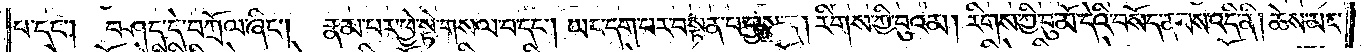པ་དང༌། བཤད་དེ་བཀྲོལ་ཞིང༌། རྣམ་པར་ཕྱེ་སྟེ་གསལ་བ་དང༌། ཡང་དག་པར་བསྟན་པ་བྱས་ན། རིགས་ཀྱི་བུའམ། རིགས་ཀྱི་བུ་མོ་དེའི་བསོད་ནམས་འདི་ནི། ཆེས་མང་
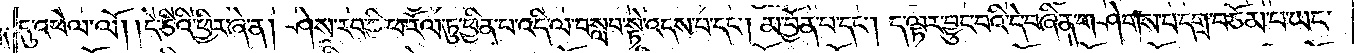དུ་འཕེལ་ལོ། །དེ་ཅིའི་ཕྱིར་ཞེ་ན། ཤེས་རབ་ཀྱི་ཕ་རོལ་ཏུ་ཕྱིན་པ་འདི་ལ་བསླབ་སྟེ་འདས་པ་དང༌། མ་བྱོན་པ་དང༌། ད་ལྟར་བྱུང་བའི་དེ་བཞིན་གཤེགས་པ་དགྲ་བཅོམ་པ་ཡང་
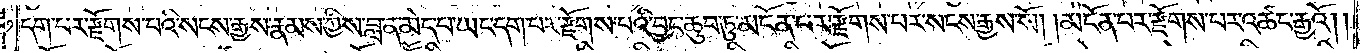དག་པར་རྫོགས་པའི་སངས་རྒྱས་རྣམས་ཀྱིས་བླ་ན་མེད་པ་ཡང་དག་པར་རྫོགས་པའི་བྱང་ཆུབ་ཏུ་མངོན་པར་རྫོགས་པར་སངས་རྒྱས་སོ། །མངོན་པར་རྫོགས་པར་འཚང་རྒྱའོ། །
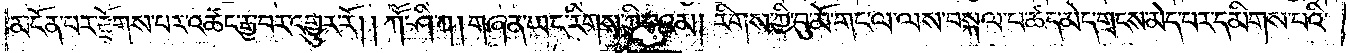མངོན་པར་རྫོགས་པར་འཚང་རྒྱ་བར་འགྱུར་རོ། །ཀཽ་ཤི་ཀ། གཞན་ཡང་རིགས་ཀྱི་བུའམ། རིགས་ཀྱི་བུ་མོ་ལ་ལས་བསྐལ་པ་ཚད་མེད་གྲངས་མེད་པར་དམིགས་པའི་
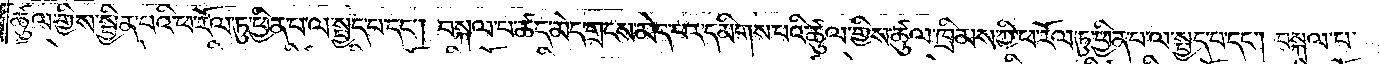ཚུལ་གྱིས་སྦྱིན་པའི་ཕ་རོལ་ཏུ་ཕྱིན་པ་ལ་སྤྱད་པ་དང༌། བསྐལ་པ་ཚད་མེད་གྲངས་མེད་པར་དམིགས་པའི་ཚུལ་གྱིས་ཚུལ་ཁྲིམས་ཀྱི་ཕ་རོལ་ཏུ་ཕྱིན་པ་ལ་སྤྱད་པ་དང༌། བསྐལ་པ་
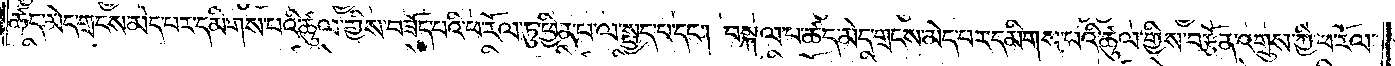ཚད་མེད་གྲངས་མེད་པར་དམིགས་པའི་ཚུལ་གྱིས་བཟོད་པའི་ཕ་རོལ་ཏུ་ཕྱིན་པ་ལ་སྤྱད་པ་དང༌། བསྐལ་པ་ཚད་མེད་གྲངས་མེད་པར་དམིགས་པའི་ཚུལ་གྱིས་བརྩོན་འགྲུས་ཀྱི་ཕ་རོལ་
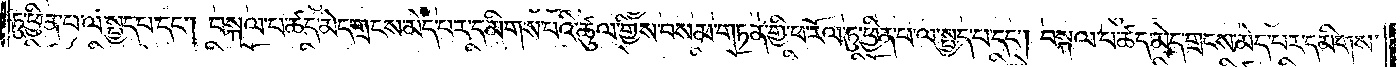ཏུ་ཕྱིན་པ་ལ་སྤྱད་པ་དང༌། བསྐལ་པ་ཚད་མེད་གྲངས་མེད་པར་དམིགས་པའི་ཚུལ་གྱིས་བསམ་གཏན་གྱི་ཕ་རོལ་ཏུ་ཕྱིན་པ་ལ་སྤྱད་པ་དང༌། བསྐལ་པ་ཚད་མེད་གྲངས་མེད་པར་དམིགས་
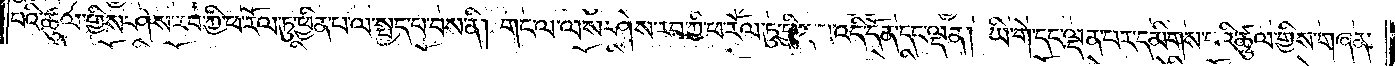པའི་ཚུལ་གྱིས་ཤེས་རབ་ཀྱི་ཕ་རོལ་ཏུ་ཕྱིན་པ་ལ་སྤྱད་པ་བས་ནི། གང་ལ་ལས་ཤེས་རབ་ཀྱི་ཕ་རོལ་ཏུ་ཕྱིན་པ་འདི་དོན་དང་ལྡན། ཡི་གེ་དང་ལྡན་པར་དམིགས་པའི་ཚུལ་གྱིས་གཞན་
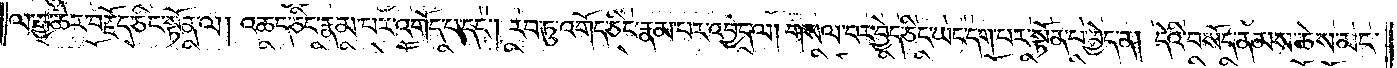ལ་རྒྱ་ཆེར་བརྗོད་ཅིང་སྟོན་ལ། འཆད་ཅིང་རྣམ་པར་འགོད་པ་དང༌། རབ་ཏུ་འགོད་ཅིང་རྣམ་པར་འབྱེད་ལ། གསལ་བར་བྱེད་ཅིང་ཡང་དག་པར་སྟོན་པ་བྱེད་ན། དེའི་བསོད་ནམས་ཆེས་མང་
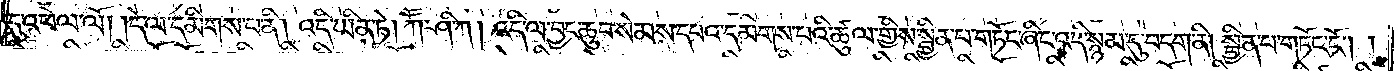དུ་འཕེལ་ལོ། །དེ་ལ་དམིགས་པ་ནི། འདི་ཡིན་ཏེ། ཀཽ་ཤི་ཀ། འདི་ལ་བྱང་ཆུབ་སེམས་དཔའ་དམིགས་པའི་ཚུལ་གྱིས་སྦྱིན་པ་གཏོང་ཞིང་འདི་སྙམ་དུ་བདག་ནི། སྦྱིན་པ་གཏོང་ངོ༌། །
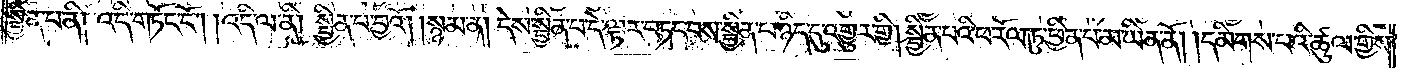སྦྱིན་པ་ནི། འདི་གཏོང་ངོ༌། །འདི་ལ་ནི། སྦྱིན་པ་བྱའོ། །སྙམ་ན། དེས་སྦྱིན་པ་དེ་ལྟར་བཏང་བས་སྦྱིན་པ་ཉིད་དུ་འགྱུར་གྱི། སྦྱིན་པའི་ཕ་རོལ་ཏུ་ཕྱིན་པ་མ་ཡིན་ནོ། །དམིགས་པའི་ཚུལ་གྱིས་
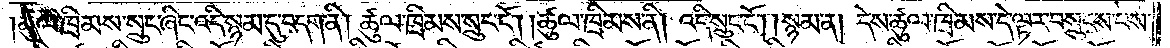ཚུལ་ཁྲིམས་སྲུང་ཞིང་འདི་སྙམ་དུ་བདག་ནི། ཚུལ་ཁྲིམས་སྲུང་ངོ༌། །ཚུལ་ཁྲིམས་ནི། འདི་སྲུང་ངོ༌། སྙམ་ན། དེས་ཚུལ་ཁྲིམས་དེ་ལྟར་བསྲུངས་པས་
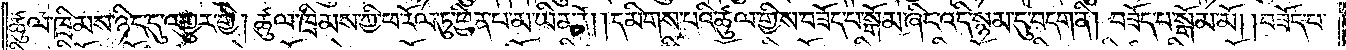ཚུལ་ཁྲིམས་ཉིད་དུ་འགྱུར་གྱི། ཚུལ་ཁྲིམས་ཀྱི་ཕ་རོལ་ཏུ་ཕྱིན་པ་མ་ཡིན་ནོ། །དམིགས་པའི་ཚུལ་གྱིས་བཟོད་པ་སྒོམ་ཞིང་འདི་སྙམ་དུ་བདག་ནི། བཟོད་པ་སྒོམ་མོ། །བཟོད་པ་
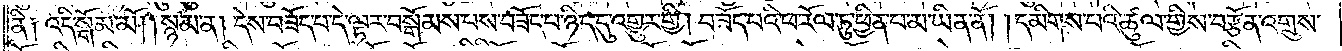ནི༑ འདི་སྒོམ་མོ། །སྙམ་ན། དེས་བཟོད་པ་དེ་ལྟར་བསྒོམས་པས་བཟོད་པ་ཉིད་དུ་འགྱུར་གྱི། བཟོད་པའི་ཕ་རོལ་ཏུ་ཕྱིན་པ་མ་ཡིན་ནོ། །དམིགས་པའི་ཚུལ་གྱིས་བརྩོན་འགྲུས་
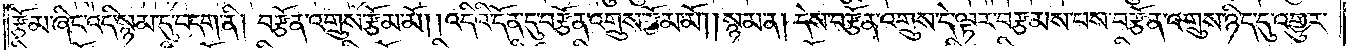རྩོམ་ཞིང་འདི་སྙམ་དུ་བདག་ནི། བརྩོན་འགྲུས་རྩོམ་མོ། །འདིའི་དོན་དུ་བརྩོན་འགྲུས་རྩམ་མོ། །སྙམ་ན། དེས་བརྩོན་འགྲུས་དེ་ལྟར་བརྩམས་པས་བརྩོན་འགྲུས་ཉིད་དུ་འགྱུར་
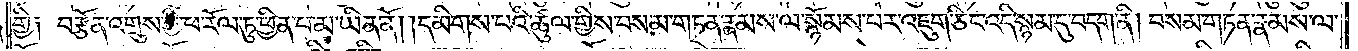གྱི༑ བརྩོན་འགྲུས་ཀྱི་ཕ་རོལ་ཏུ་ཕྱིན་པ་མ་ཡིན་ནོ། །དམིགས་པའི་ཚུལ་གྱིས་བསམ་གཏན་རྣམས་ལ་སྙོམས་པར་འཇུག་ཅིང་འདི་སྙམ་དུ་བདག་ནི། བསམ་གཏན་རྣམས་ལ་
